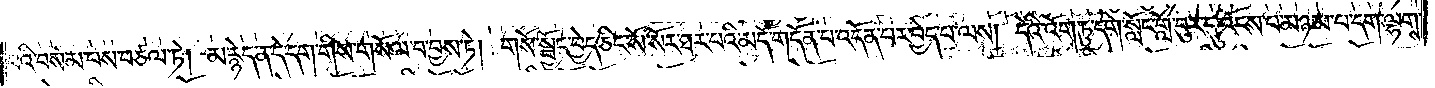པའི་བསམ་པས་བཙལ་ཏེ། མ་རྙེད་ན་དེ་དག་གིས་གསོལ་བ་བྱས་ཏེ། གསོ་སྦྱོང་བྱེད་ཅིང་སོ་སོར་ཐར་པའི་མདོ་གདོན་པ་འདོན་པར་བྱེད་པ་ལས། དེའི་འོག་ཏུ་དགེ་སློང་གློ་བུར་དུ་འོངས་པ་མཉམ་པ་དག་ལྷགས་
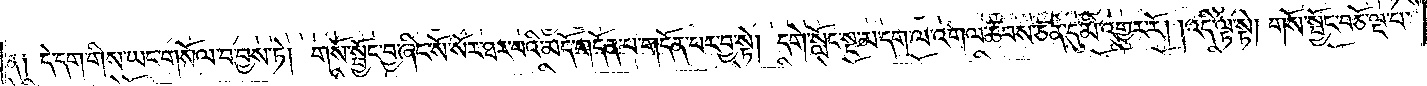ན༑ དེ་དག་གིས་ཡང་གསོལ་བ་བྱས་ཏེ། གསོ་སྦྱོང་བྱ་ཞིང་སོ་སོར་ཐར་པའི་མདོ་གདོན་པ་གདོན་པར་བྱ་སྟེ། དགེ་སློང་སྔ་མ་དག་ལ་འགལ་ཚབས་ཅན་དུ་མི་འགྱུར་རོ། །འདི་ལྟ་སྟེ། གསོ་སྦྱོང་བཅོ་ལྔ་པ་
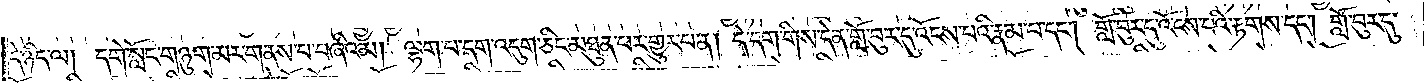དེ་ཉིད་ལ། དགེ་སློང་གཉུག་མར་གནས་པ་བཞིའམ། ལྷག་པ་དག་འདུག་ཅིང་མཐུན་པར་གྱུར་པ་ན། དེ་དག་གིས་དེ་ན་གློ་བུར་དུ་འོངས་པའི་རྣམ་པ་དང༌། གློ་བུར་དུ་འོངས་པའི་རྟགས་དང༌། གློ་བུར་དུ་
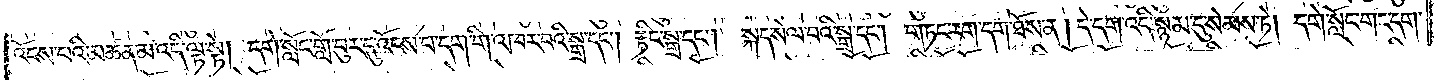འོངས་པའི་མཚན་མ་འདི་ལྟ་སྟེ། དགེ་སློང་གློ་བུར་དུ་འོངས་པ་དག་གི་འཁར་བའི་སྒྲ་དང༌། རྟིང་སྒྲ་དང༌། སྐད་སེལ་བའི་སྒྲ་དང༌། གཏང་རག་དག་ཐོས་ན། དེ་དག་འདི་སྙམ་དུ་སེམས་ཏེ། དགེ་སློང་གང་དག་
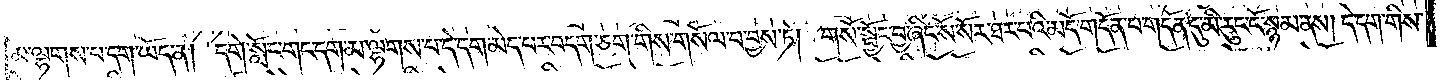མ་ལྷགས་པ་དག་ཡོད་ན། དགེ་སློང་གང་དག་མ་ལྷགས་པ་དེ་དག་མེད་པར་བདག་ཅག་གིས་གསོལ་བ་བྱས་ཏེ། གསོ་སྦྱོང་བྱ་ཞིང་སོ་སོར་ཐར་པའི་མདོ་གདོན་པ་གདོན་དུ་མི་རུང་ངོ་སྙམ་ནས། དེ་དག་གིས་
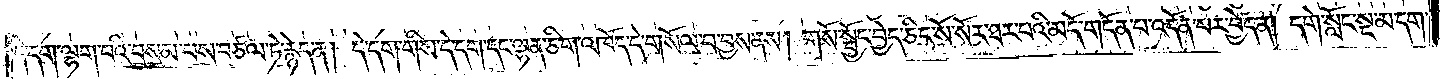དེ་དག་ལྷག་པའི་བསམ་པས་བཙལ་ཏེ་རྙེད་ན། དེ་དག་གིས་དེ་དག་དང་ལྷན་ཅིག་འཁོད་དེ་གསོལ་བ་བྱས་ནས། གསོ་སྦྱོང་བྱེད་ཅིང་སོ་སོར་ཐར་བའི་མདོ་གདོན་པ་འདོན་པར་བྱེད་ན། དགེ་སློང་སྔ་མ་དག་
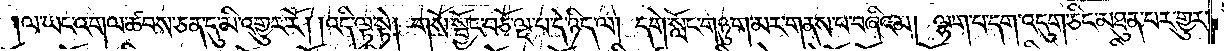།ལ་ཡང་འགལ་ཚབས་ཅན་དུ་མི་འགྱུར་རོ། །འདི་ལྟ་སྟེ། གསོ་སྦྱོང་བཅོ་ལྔ་པ་དེ་ཉིད་ལ། དགེ་སློང་གཉུག་མར་གནས་པ་བཞིའམ། ལྷག་པ་དག་འདུག་ཅིང་མཐུན་པར་གྱུར་
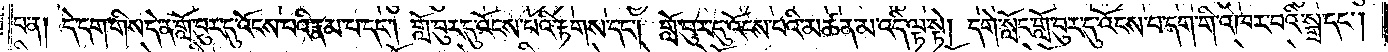པ་ན། དེ་དག་གིས་དེ་ན་གློ་བུར་དུ་འོངས་པའི་རྣམ་པ་དང༌། གློ་བུར་དུ་འོངས་པའི་རྟགས་དང༌། གློ་བུར་དུ་འོངས་པའི་མཚན་མ་འདི་ལྟ་སྟེ། དགེ་སློང་གློ་བུར་དུ་འོངས་པ་དག་གི་འཁར་བའི་སྒྲ་དང༌།
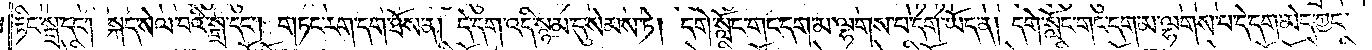རྟིང་སྒྲ་དང༌། སྐད་སེལ་བའི་སྒྲ་དང༌། གཏང་རག་དག་ཐོས་ན། དེ་དག་འདི་སྙམ་དུ་སེམས་ཏེ། དགེ་སློང་གང་དག་མ་ལྷགས་པ་དག་ཡོད་ན། དགེ་སློང་གང་དག་མ་ལྷགས་པ་དེ་དག་མེདཀྱང་
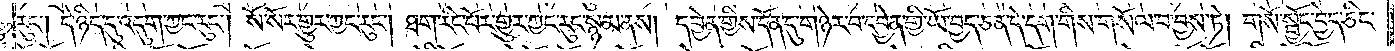རུང༌། དེ་ཉིད་དུ་འདུག་ཀྱང་རུང༌། སོ་སོར་གྱུར་ཀྱང་རུང༌། ཐག་རིང་པོར་གྱུར་ཀྱང་རུང་སྙམ་ནས། དབྱེན་གྱིས་དོན་དུ་གཉེར་བ་དབྱེན་གྱི་ཡོ་བྱད་ཅན་དེ་དག་གིས་གསོལ་བ་བྱས་ཏེ། གསོ་སྦྱོང་བྱེད་ཅིང་
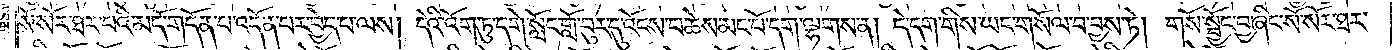སོ་སོར་ཐར་པའི་མདོ་གདོན་པ་འདོན་པར་བྱེད་པ་ལས། དེའི་འོག་ཏུ་དགེ་སློང་གློ་བུར་དུ་འོངས་པ་ཆེས་མང་པོ་དག་ལྷགས་ན། དེ་དག་གིས་ཡང་གསོལ་བ་བྱས་ཏེ། གསོ་སྦྱོང་བྱ་ཞིང་སོ་སོར་ཐར་
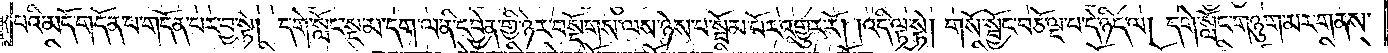པའི་མདོ་གདོན་པ་གདོན་པར་བྱ་སྟེ། དགེ་སློང་སྔ་མ་དག་ལ་ནི་དབྱེན་གྱི་ཉེར་བསྡོགས་ལས་ཉེས་པ་སྦོམ་པོར་འགྱུར་རོ། །འདི་ལྟ་སྟེ། གསོ་སྦྱོང་བཅོ་ལྔ་པ་དེ་ཉིད་ལ། དགེ་སློང་གཉུག་མར་གནས་
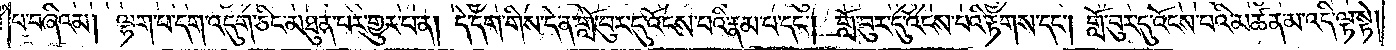པ་བཞིའམ། ལྷག་པ་དག་འདུག་ཅིང་མཐུན་པར་གྱུར་པ་ན། དེ་དག་གིས་དེ་ན་གློ་བུར་དུ་འོངས་པའི་རྣམ་པ་དང༌། གློ་བུར་དུ་འོངས་པའི་རྟགས་དང༌། གློ་བུར་དུ་འོངས་པའི་མཚན་མ་འདི་ལྟ་སྟེ།
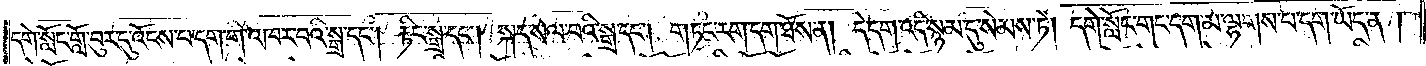དགེ་སློང་གློ་བུར་དུ་འོངས་པ་དག་གི་འཁར་བའི་སྒྲ་དང༌། རྟིང་སྒྲ་དང༌། སྐད་སེལ་བའི་སྒྲ་དང༌། གཏང་རག་དག་ཐོས་ན། དེ་དག་འདི་སྙམ་དུ་སེམས་ཏེ། དགེ་སློང་གང་དག་མ་ལྷགས་པ་དག་ཡོད་ན།
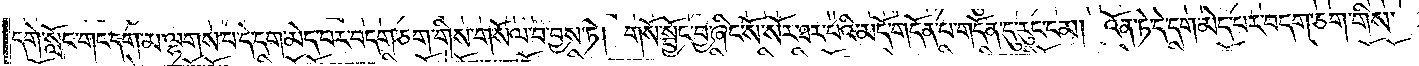དགེ་སློང་གང་དག་མ་ལྷགས་པ་དེ་དག་མེད་པར་བདག་ཅག་གིས་གསོལ་བ་བྱས་ཏེ། གསོ་སྦྱོང་བྱ་ཞིང་སོ་སོར་ཐར་པའི་མདོ་གདོན་པ་གདོན་དུ་རུང་ངམ། འོན་ཏེ་དེ་དག་མེད་པར་བདག་ཅག་གིས་
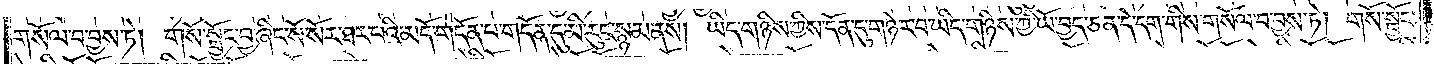གསོལ་བ་བྱས་ཏེ། གསོ་སྦྱོང་བྱ་ཞིང་སོ་སོར་ཐར་པའི་མདོ་གདོན་པ་གདོན་དུ་མི་རུང་སྙམ་ནས། ཡིད་གཉིས་ཀྱིས་དོན་དུ་གཉེར་བ་ཡིད་གཉིས་ཀྱི་ཡོ་བྱད་ཅན་དེ་དག་གིས་གསོལ་བ་བྱས་ཏེ། གསོ་སྦྱོང་
